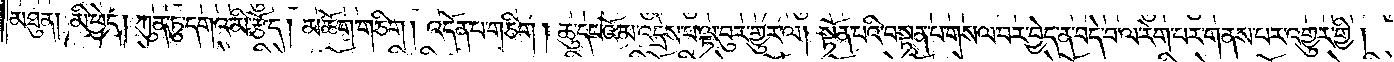མཐུན། མི་ཕྱེད་།ཀུན་ཏུ་དགའ་མི་རྩོད། མཆོག་གཅིག །འདོན་པ་གཅིག །ཆུ་དང་འོ་མ་འདྲེས་པ་ལྟ་བུར་གྱུར་ལ། སྟོན་པའི་བསྟན་པ་གསལ་བར་བྱེད་ན་བདེ་བ་ལ་རེག་པར་གནས་པར་འགྱུར་གྱི།
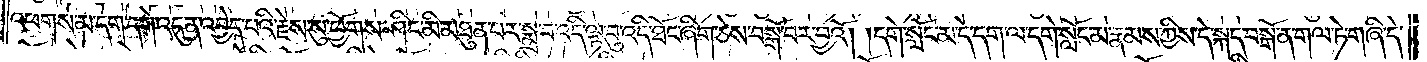འཕགས་མ་དག་དགེ་འདུན་འབྱེད་པའི་རྗེས་སུ་ཕྱོགས་ཤིང་མི་མཐུན་པར་སྨྲ་བ་འདི་ལྟ་བུ་འདི་ཐོང་ཞིག་ཅེས་བསྒོ་བར་བྱའོ། །དགེ་སློང་མ་དེ་དག་ལ་དགེ་སློང་མ་རྣམས་ཀྱིས་དེ་སྐད་བསྒོ་ན་གལ་ཏེ་གཞི་དེ་
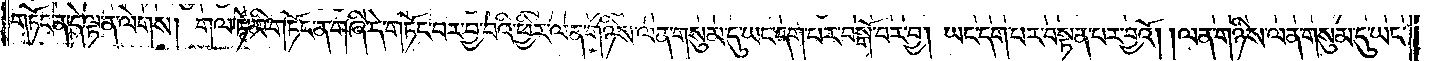གཏོང་ན་དེ་ལྟ་ན་ལེགས། གལ་ཏེ་མི་གཏོང་ན་གཞི་དེ་གཏོང་བར་བྱ་བའི་ཕྱིར་ལན་གཉིས་ལན་གསུམ་དུ་ཡང་དག་པར་བསྒོ་བར་བྱ། ཡང་དག་པར་བསྟན་པར་བྱའོ། །ལན་གཉིས་ལན་གསུམ་དུ་ཡང་
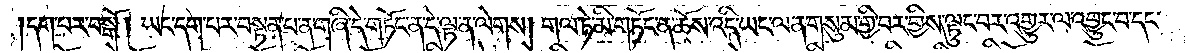དག་པར་བསྒོ། ཡང་དག་པར་བསྟན་པ་ན་གཞི་དེ་གཏོང་ན་དེ་ལྟ་ན་ལེགས། གལ་ཏེ་མི་གཏོང་ན་ཆོས་འདི་ཡང་ལན་གསུམ་གྱི་བར་གྱིས་ལྟུང་བར་འགྱུར་ལ་འབྱུང་བ་དང་
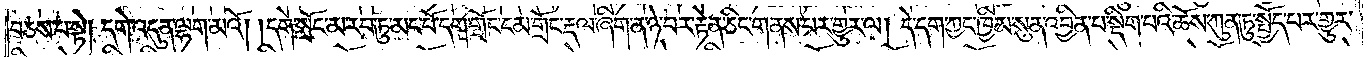བཅས་པ་སྟེ། དགེ་འདུན་ལྷག་མའོ། །དགེ་སློང་མ་རབ་ཏུ་མང་པོ་དག་གྲོང་ངམ་གྲོང་རྡལ་ཞིག་ན་ཉེ་བར་རྟེན་ཅིང་གནས་པར་གྱུར་ལ། དེ་དག་ཀྱང་ཁྱིམ་སུན་འབྱིན་པ་སྡིག་པའི་ཆོས་ཀུན་ཏུ་སྤྱོད་པར་གྱུར་
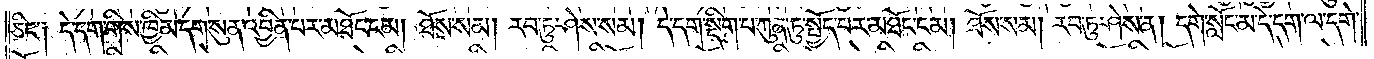ཅིང་༑ དེ་དག་གིས་ཁྱིམ་དག་སུན་འབྱིན་པར་མཐོང་ངམ། ཐོས་སམ། རབ་ཏུ་ཤེས་སམ། དེ་དག་སྡིག་པ་ཀུན་ཏུ་སྤྱོད་པར་མཐོང་ངམ། ཐོས་སམ། རབ་ཏུ་ཤེས་ན། དགེ་སློང་མ་དེ་དག་ལ་དགེ་
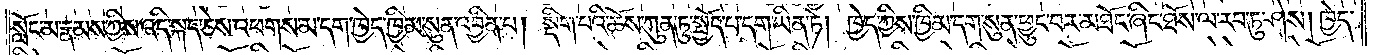སློང་མ་རྣམས་ཀྱིས་འདི་སྐད་ཅེས་འཕགས་མ་དག་ཁྱེད་ཁྱིམ་སུན་འབྱིན་པ། སྡིག་པའི་ཆོས་ཀུན་ཏུ་སྤྱོད་པ་དག་ཡིན་ཏེ། ཁྱེད་ཀྱིས་ཁྱིམ་དག་སུན་ཕྱུང་བར་མཐོང་ཞིང་ཐོས་ལ་རབ་ཏུ་ཤེས། ཁྱེད་
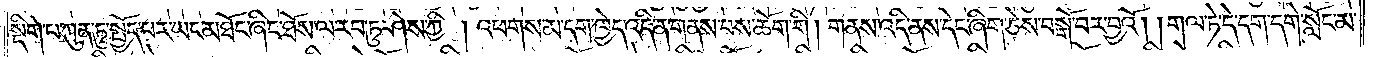སྡིག་པ་ཀུན་ཏུ་སྤྱོད་པར་ཡང་མཐོང་ཞིང་ཐོས་ལ་རབ་ཏུ་ཤེས་ཀྱི། འཕགས་མ་དག་ཁྱེད་འདི་ན་གནས་པས་ཆོག་གི། གནས་འདི་ནས་དེང་ཞིག་ཅེས་བསྒོ་བར་བྱའོ། །གལ་ཏེ་དེ་དག་དགེ་སློང་མ་
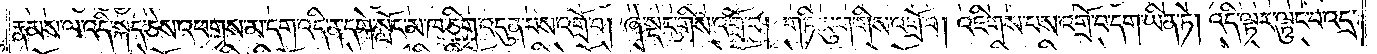རྣམས་ལ་འདི་སྐད་ཅེས་འཕགས་མ་དག་འདི་ན་དགེ་སློང་མ་ཁ་ཅིག་འདུན་པས་འགྲོ་བ། ཞེ་སྡང་གིས་འགྲོ་བ། གཏི་མུག་གིས་འགྲོ་བ། འཇིགས་པས་འགྲོ་བ་དག་ཡིན་ཏེ། འདི་ལྟར་ལྟུང་བ་འདྲ་
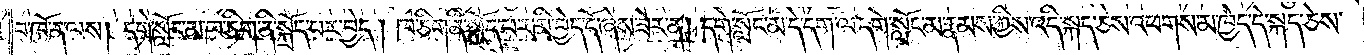བ་ཁོ་ན་ལས། དགེ་སློང་མ་ཁ་ཅིག་ནི་སྐྲོད་པར་བྱེད། ཁ་ཅིག་ནི་སྐྲོད་པར་མི་བྱེད་དོ་ཞེས་ཟེར་ན། དགེ་སློང་མ་དེ་དག་ལ་དགེ་སློང་མ་རྣམས་ཀྱིས་འདི་སྐད་ཅེས་འཕགས་མ་ཁྱེད་དེ་སྐད་ཅེས་
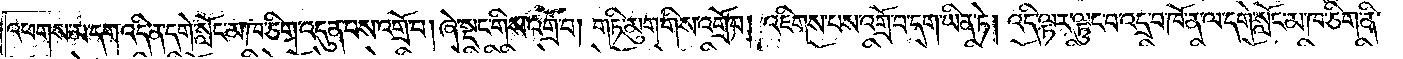འཕགས་མ་དག་འདི་ན་དགེ་སློང་མ་ཁ་ཅིག་འདུན་པས་འགྲོ་བ། ཞེ་སྡང་གིས་འགྲོ་བ། གཏི་མུག་གིས་འགྲོ་བ། འཇིགས་པས་འགྲོ་བ་དག་ཡིན་ཏེ། འདི་ལྟར་ལྟུང་བ་འདྲ་བ་ཁོ་ན་ལ་དགེ་སློང་མ་ཁ་ཅིག་ནི་
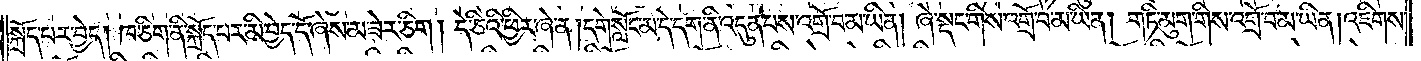སྐྲོད་པར་བྱེད། ཁ་ཅིག་ནི་སྐྲོད་པར་མི་བྱེད་དོ་ཞེས་མ་ཟེར་ཅིག། དེ་ཅིའི་ཕྱིར་ཞེ་ན། དགེ་སློང་མ་དེ་དག་ནི་འདུན་པས་འགྲོ་བ་མ་ཡིན། ཞེ་སྡང་གིས་འགྲོ་བ་མ་ཡིན། གཏི་མུག་གིས་འགྲོ་བ་མ་ཡིན། འཇིགས་
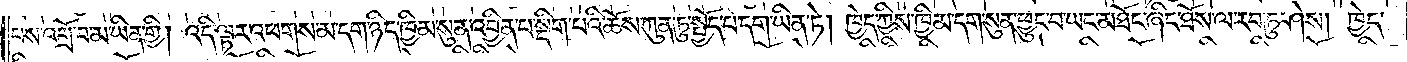པས་འགྲོ་བ་མ་ཡིན་གྱི། འདི་ལྟར་འཕགས་མ་དག་ཉིད་ཁྱིམ་སུན་འབྱིན་པ་སྡིག་པའི་ཆོས་ཀུན་ཏུ་སྤྱོད་པ་དག་ཡིན་ཏེ། ཁྱེད་ཀྱིས་ཁྱིམ་དག་སུན་ཕྱུང་བ་ཡང་མཐོང་ཞིང་ཐོས་ལ་རབ་ཏུ་ཤེས། ཁྱེད་
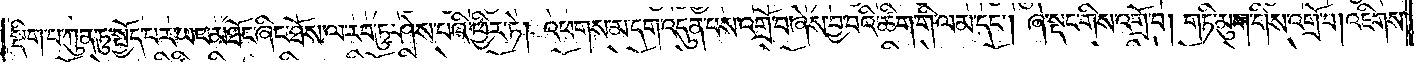སྡིག་པ་ཀུན་ཏུ་སྤྱོད་པར་ཡང་མཐོང་ཞིང་ཐོས་ལ་རབ་ཏུ་ཤེས་པའི་ཕྱིར་ཏེ། འཕགས་མ་དག་འདུན་པས་འགྲོ་བ་ཞེས་བྱ་བའི་ཚིག་གི་ལམ་དང༌། ཞེ་སྡང་གིས་འགྲོ་བ། གཏི་མུག་གིས་འགྲོ་བ། འཇིགས་
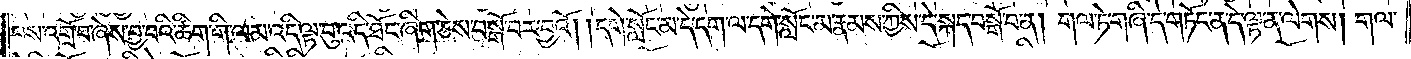པས་འགྲོ་བ་ཞེས་བྱ་བའི་ཚིག་གི་ལམ་འདི་ལྟ་བུ་འདི་ཐོང་ཞིག་ཅེས་བསྒོ་བར་བྱའོ། །དགེ་སློང་མ་དེ་དག་ལ་དགེ་སློང་མ་རྣམས་ཀྱིས་དེ་སྐད་བསྒོ་བ་ན། གལ་ཏེ་གཞི་དེ་གཏོང་ན་དེ་ལྟ་ན་ལེགས། གལ་
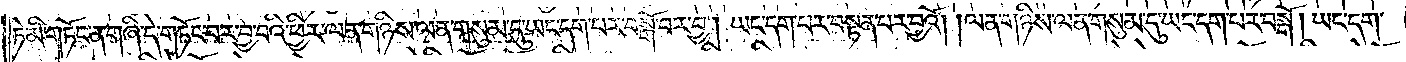ཏེ་མི་གཏོང་ན་གཞི་དེ་གཏོང་བར་བྱ་བའི་ཕྱིར་ལན་གཉིས་ལན་གསུམ་དུ་ཡང་དག་པར་བསྒོ་བར་བྱ། ཡང་དག་པར་བསྟན་པར་བྱའོ། །ལན་གཉིས་ལན་གསུམ་དུ་ཡང་དག་པར་བསྒོ། ཡང་དག་
